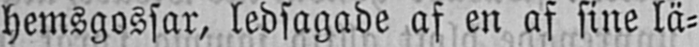hemsgossar, ledsagade af en af sine lä-
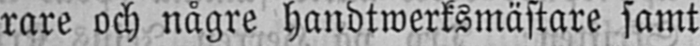rare och någre handtwerksmästare samt
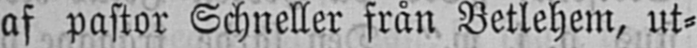af pastor Schneller från Betlehem, ut-
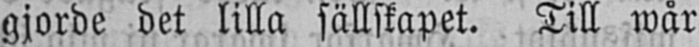gjorde det lilla sällskapet. Till wår
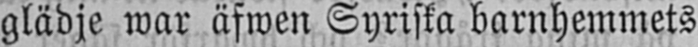glädje war äfwen Syriska barnhemmets
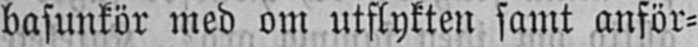basunkör med om utflykten samt anför-
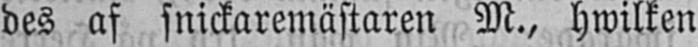des af snickaremästaren M., hwilken
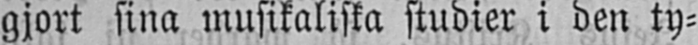gjort sina musikaliska studier i den ty-
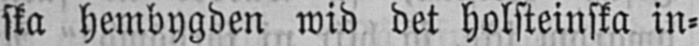ska hembygden wid det holsteinska in-
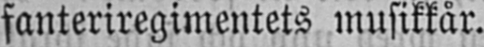fanteriregimentets musikkår.
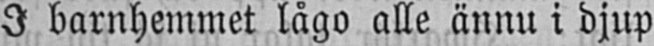I barnhemmet lågo alle ännu i djup
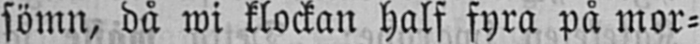sömn, då wi klockan half fyra på mor-
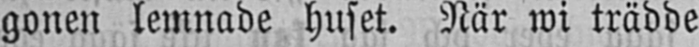gonen lemnade huset. När wi trädde
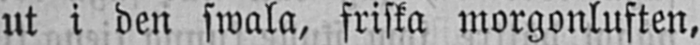ut i den swala, friska morgonluften,
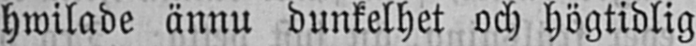hwilade ännu dunkelhet och högtidlig
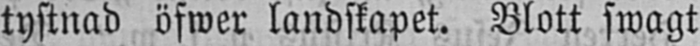tystnad öfwer landskapet. Blott swagt
